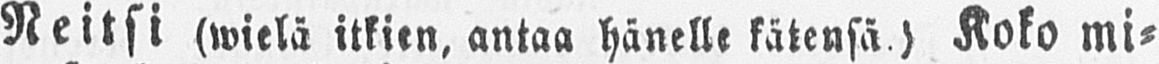Neitsi (wielä itkien, antaa hänelle kätensä.) Koko mi-
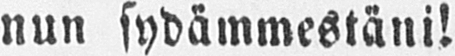nun sydämmestäni!
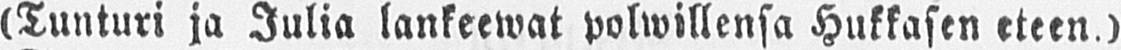(Tunturi ja Julia lankeewat polwillensa Hukkasen eteen.)
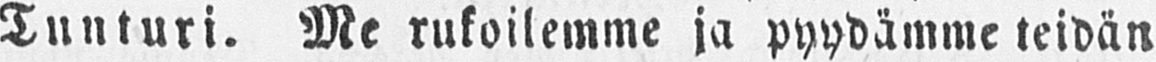Tunturi. Me rukoilemme ja pyydämme teidän
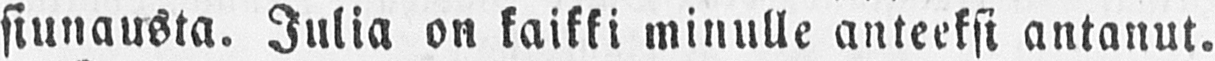siunausta. Julia on kaikki minulle anteeksi antanut.
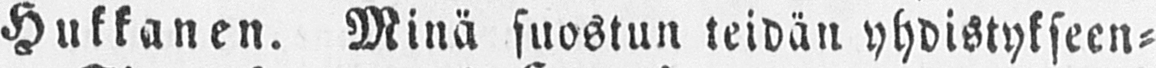Hukkanen. Minä suostun teidän yhdistykseen-
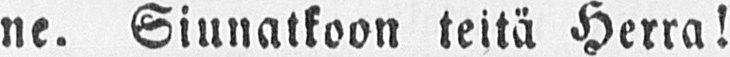ne. Siunatkoon teitä Herra!
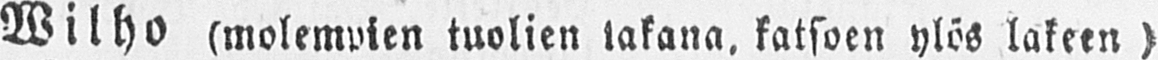Wilho (molempien tuolien lakana, katsoen ylös lakeen)
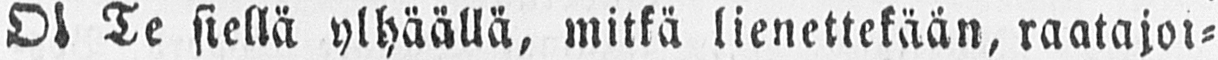Oi Te siellä ylhäällä, mitkä lienettekään, raatajoi-
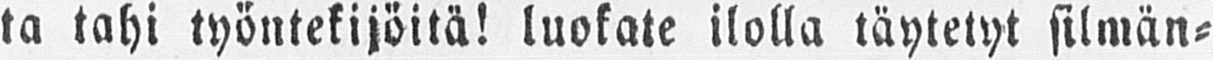ta tahi työntekijöitä! luokate ilolla täytetyt silmän-
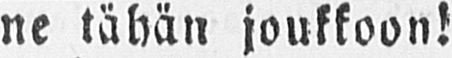ne tähän joukkoon!
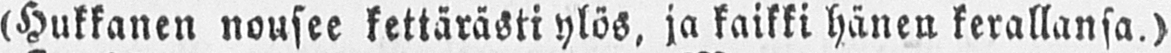(Hukkanen nousee kettärästi ylös, ja kaikki hänen kerallansa.)
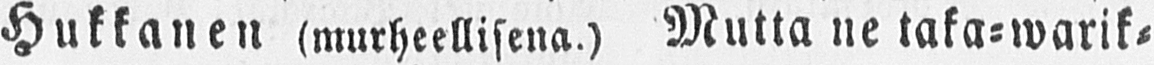Hukkanen (murheellisena.) Mutta ne taka-warik-
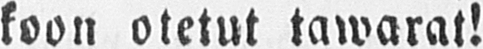koon otetut tawarat!
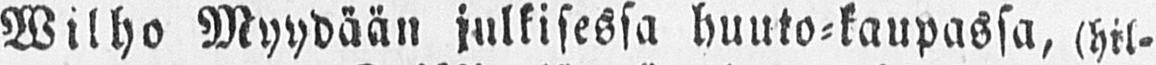Wilho Myydään julkisessa huuto-kaupassa, (hil-
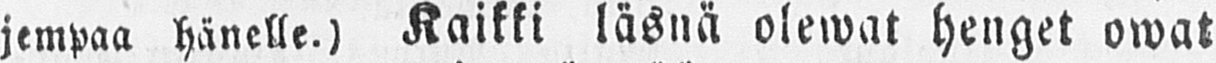jempaa hänelle.) Kaikki läsnä olewat henget owat
